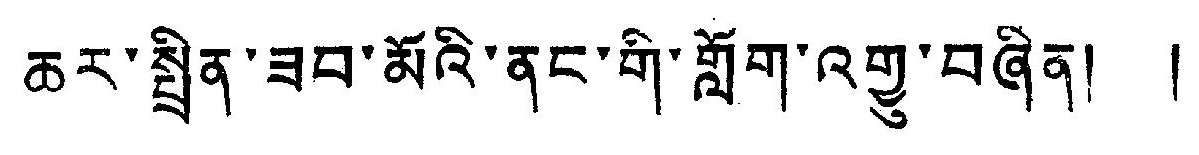ཆར་སྤྲིན་ཟབ་མོའི་ནང་གི་ཀློག་འགྱུ་བཞིན། །
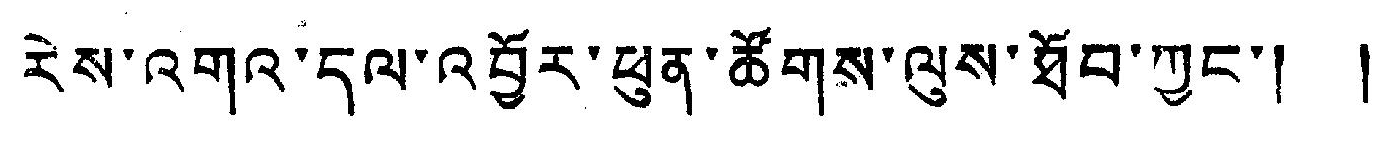རེས་འགའ་དལ་འབྱོར་ཕུན་ཚོགས་ལུས་ཐོབ་ཀྱང་། །
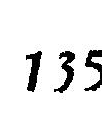135
